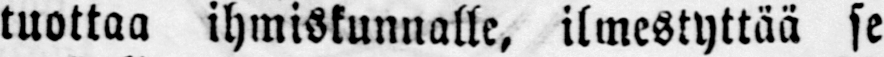tuottaa ihmiskunnalle, ilmestyttää se
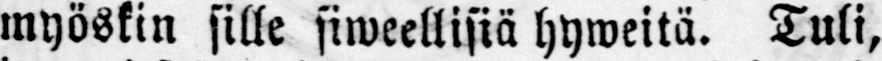myöskin sille siweellisiä hyweitä. Tuli,
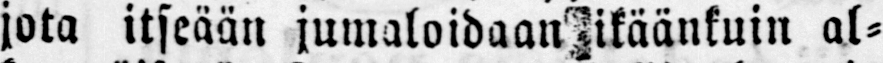jota itseään jumaloidaan ikäänkuin al-
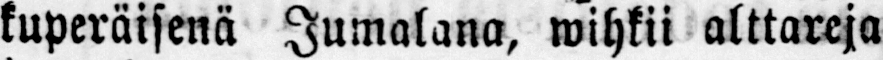kuperäisenä Jumalana, wihkii alttareja
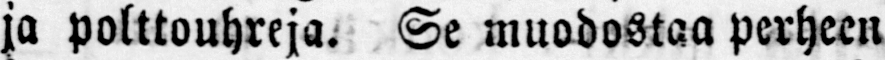ja polttouhreja. Se muodostaa perheen
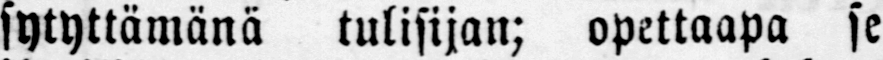sytyttämänä tulisijan; opettaapa se
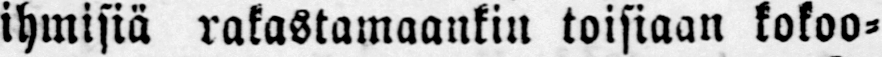ihmisiä rakastamaankin toisiaan kokoo-
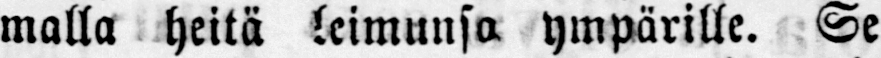malla heitä leimunsa ympärille. Se
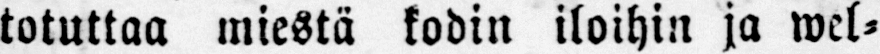totuttaa miestä kodin iloihin ja wel-
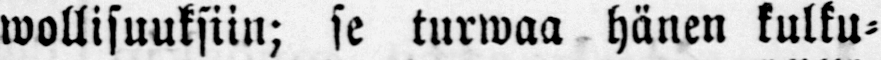wollisuuksiin; se turwaa hänen kulku-
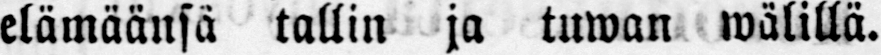elämäänsä tallin ja tuwan wälillä.
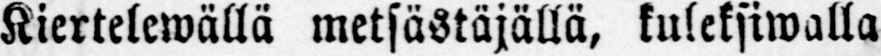Kiertelewällä metsästäjällä, kuleksiwalla
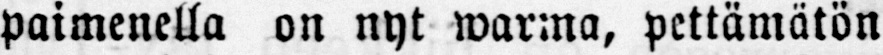paimenella on nyt warma, pettämätön
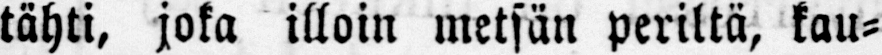tähti, joka illoin metsän periltä, kau-
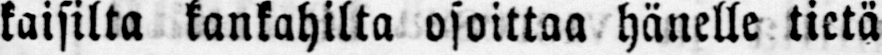kaisilta kankahilta osoittaa hänelle tietä
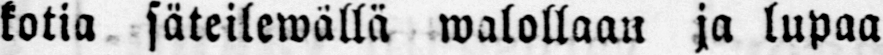kotia säteilewällä walollaan ja lupaa
